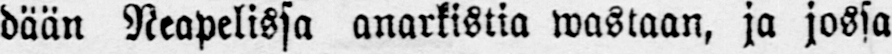dään Neapelissa anarkistia wastaan, ja jossa
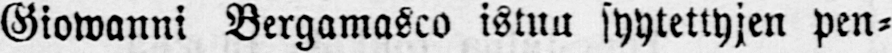Giowanni Bergamasco istuu syytettyjen pen-
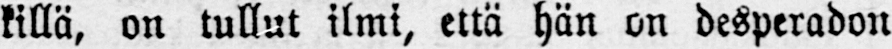killä, on tullut ilmi, että hän on desperadon
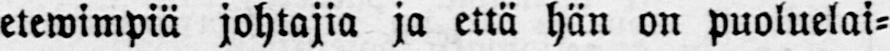etewimpiä johtajia ja että hän on puoluelai-
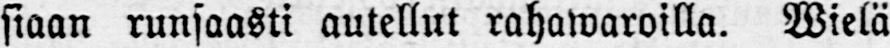siaan runsaasti autellut rahawaroilla. Wielä
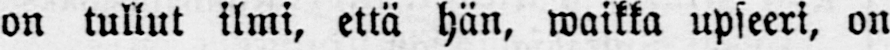on tullut ilmi, että hän, waikka upseeri, on
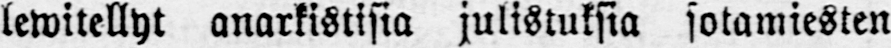lewitellyt anarkistisia julistuksia sotamiesten
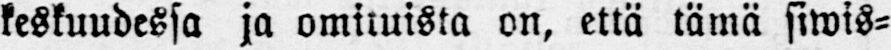keskuudessa ja omituista on, että tämä siwis-
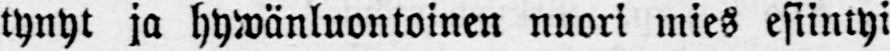tynyt ja hywänluontoinen nuori mies esiintyi
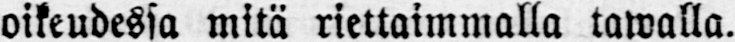oikeudessa mitä riettaimmalla tawalla.
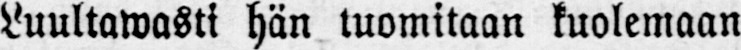Luultawasti hän tuomitaan kuolemaan.
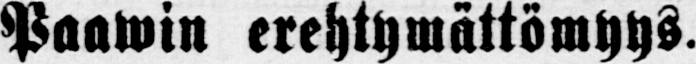Paawin erehtymättömyys.
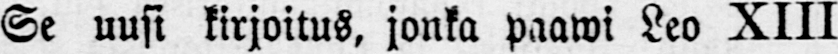Se uusi kirjoitus, jonka paawi Leo XIII
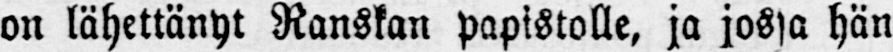on lähettänyt Ranskan papistolle, ja jossa hän
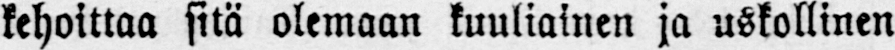kehoittaa sitä olemaan kuuliainen ja uskollinen
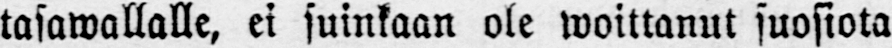tasawallalle, ei suinkaan ole woittanut suosiota
